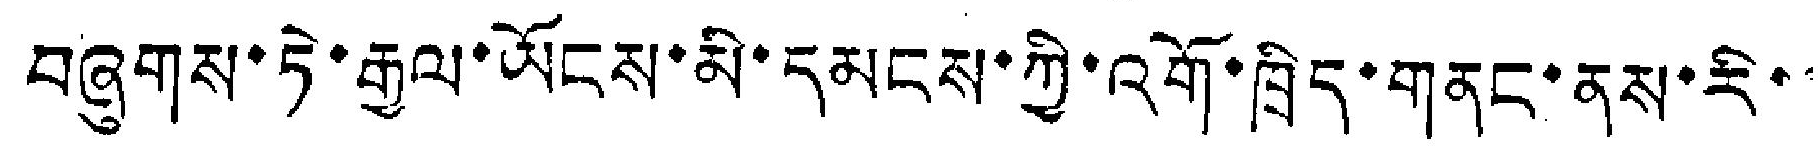བཞུགས་ཏེ་རྒྱལ་ཡོངས་མི་དམངས་ཀྱི་འགོ་ཁྲིད་གནང་ནས་རི་་
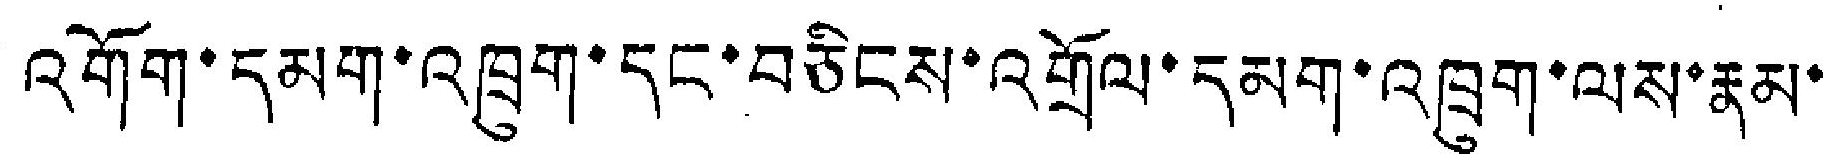འགོག་དམག་འཁྲུག་དང་བཅིངས་འགྲོལ་དམག་འཁྲུག་ལས་རྣམ་
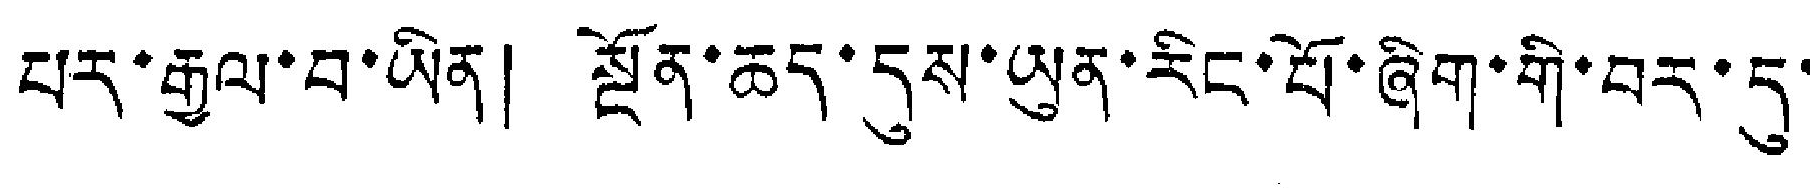པར་རྒྱལ་བ་ཡིན། སྔོན་ཆད་དུས་ཡུན་རིང་པོ་ཞིག་གི་བར་དུ་
